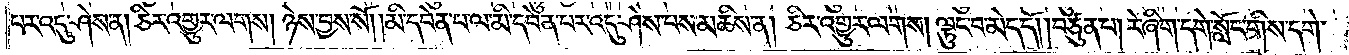པར་འདུ་ཤེས་ན། ཅིར་འགྱུར་ལགས། ཉེས་བྱས་སོ། །མི་དབེན་པ་ལ་མི་དབེན་པར་འདུ་ཤེས་པས་མཆིས་ན། ཅིར་འགྱུར་ལགས། ལྟུང་བ་མེད་དོ། །བཙུན་པ། རེ་ཞིག་དགེ་སློང་གིས་དགེ་
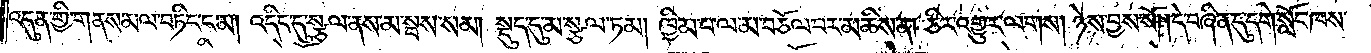འདུན་གྱི་གནས་མལ་བཏིང་ངམ། འདིང་དུ་སྩལ་ནས་མ་སྦས་སམ། སྡུད་དུ་མ་སྩལ་ཏམ། ཁྱིམ་པ་ལ་མ་བཅོལ་བར་མཆིས་ན། ཅིར་འགྱུར་ལགས། ཉེས་བྱས་སོ། །དེ་བཞིན་དུ་དགེ་སློང་ཁས་
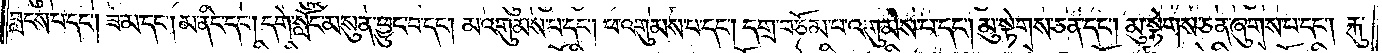བླངས་པ་དང༌། ཟ་མ་དང༌། མ་ནིང་དང༌། དགེ་སློང་མ་སུན་ཕྱུང་བ་དང༌། མ་འགུམས་པ་དང༌། ཕ་འགུམས་པ་དང༌། དགྲ་བཅོམ་པ་འགུམས་པ་དང༌། མུ་སྟེགས་ཅན་དང༌། མུ་སྟེགས་ཅན་ཞུགས་པ་དང༌། རྐུ་
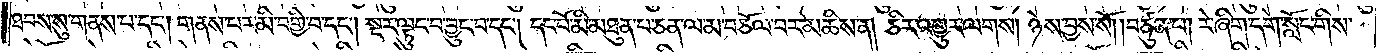ཐབས་སུ་གནས་པ་དང༌། གནས་པར་མི་བགྱི་བ་དང༌། སྔར་ལྟུང་བ་བྱུང་བ་དང༌། དང་པོ་མི་མཐུན་པ་ཅན་ལ་མ་བཅོལ་བར་མཆིས་ན། ཅིར་འགྱུར་ལགས། ཉེས་བྱས་སོ། །བཙུན་པ། རེ་ཞིག་དགེ་སློང་གིས་
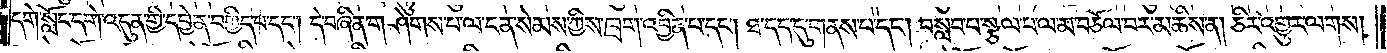དགེ་སློང་དགེ་འདུན་གྱི་དབྱེན་བགྱིད་པ་དང༌། དེ་བཞིན་གཤེགས་པ་ལ་ངན་སེམས་ཀྱིས་ཁྲག་འབྱིན་པ་དང༌། ཐ་དད་དུ་གནས་པ་དང༌། བསླབ་པ་སྩལ་པ་ལ་མ་བཅོལ་བར་མཆིས་ན། ཅིར་འགྱུར་ལགས།
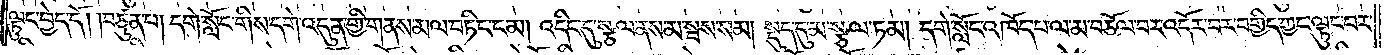ལྟུང་བྱེད་དོ། །བཙུན་པ། དགེ་སློང་གིས་དགེ་འདུན་གྱི་གནས་མལ་བཏིང་ངམ། འདིང་དུ་སྩལ་ནས་མ་སྦས་སམ། སྡུད་དུ་མ་སྩལ་ཏམ། དགེ་སློང་འཁོད་པ་ལ་མ་བཅོལ་བར་འདོར་བར་བགྱིད་ཀྱང་ལྟུང་བར་
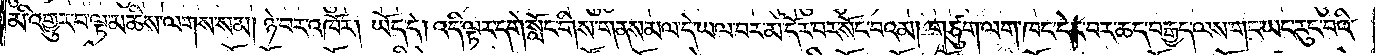མི་འགྱུར་བ་ལྟ་མཆིས་ལགས་སམ། ཉེ་བར་འཁོར། ཡོད་དེ། འདི་ལྟར་དགེ་སློང་གིས་གནས་མལ་དེ་ཡང་བར་མ་དོར་བར་སོང་བའམ། གཙུག་ལག་ཁང་དེར་བར་ཆད་བརྒྱད་ལས་གང་ཡང་རུང་བའི་
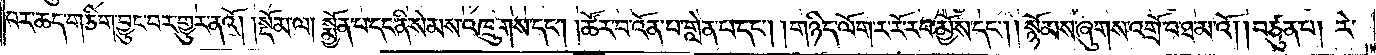བར་ཆད་གཅིག་བྱུང་བར་གྱུར་ནའོ། །སྡོམ་ལ། སྨྱོན་པ་དང་ནི་སེམས་འཁྲུགས་དང༌། །ཚོར་བ་འོན་པ་གླེན་པ་དང༌། །གཉིད་ལོག་ར་རོ་རབ་མྱོས་དང༌། །སྙོམས་ཞུགས་འགྲོ་བ་ཐ་མའོ། །བཙུན་པ། རེ་
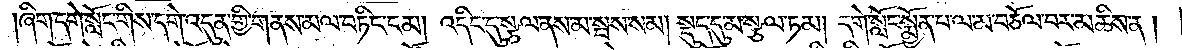།ཞིག་དགེ་སློང་གིས་དགེ་འདུན་གྱི་གནས་མལ་བཏིང་ངམ། འདིང་དུ་སྩལ་ནས་མ་སྦས་སམ། སྡུད་དུ་མ་སྩལ་ཏམ། དགེ་སློང་སྨྱོན་པ་ལ་མ་བཅོལ་བར་མཆིས་ན།
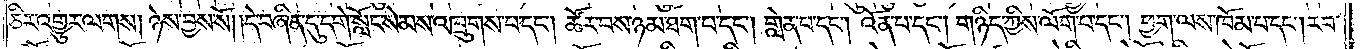ཅིར་འགྱུར་ལགས། ཉེས་བྱས་སོ། །དེ་བཞིན་དུ་དགེ་སློང་སེམས་འཁྲུགས་པ་དང༌། ཚོར་བས་ཉམས་ཐག་པ་དང༌། གླེན་པ་དང༌། འོན་པ་དང༌། གཉིད་ཀྱིས་ལོག་པ་དང༌། ཕྱག་ལས་ཁོམ་པ་དང༌། རབ་
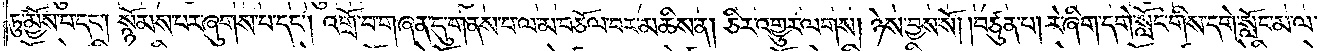ཏུ་མྱོས་པ་དང༌། སྙོམས་པར་ཞུགས་པ་དང༌། འགྲོ་བ་གཞན་དུ་གནས་པ་ལ་མ་བཅོལ་བར་མཆིས་ན། ཅིར་འགྱུར་ལགས། ཉེས་བྱས་སོ། །བཙུན་པ། རེ་ཞིག་དགེ་སློང་གིས་དགེ་སློང་མ་ལ་
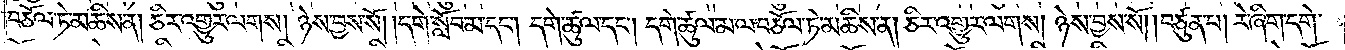བཅོལ་ཏེ་མཆིས་ན། ཅིར་འགྱུར་ལགས། ཉེས་བྱས་སོ། །དགེ་སློབ་མ་དང༌། དགེ་ཚུལ་དང༌། དགེ་ཚུལ་མ་ལ་བཅོལ་ཏེ་མཆིས་ན། ཅིར་འགྱུར་ལགས། ཉེས་བྱས་སོ། །བཙུན་པ། རེ་ཞིག་དགེ་
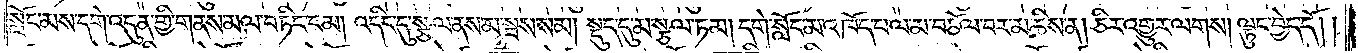སློང་མས་དགེ་འདུན་གྱི་གནས་མལ་བཏིང་ངམ། འདིང་དུ་སྩལ་ནས་མ་སྦས་སམ། སྡུད་དུ་མ་སྩལ་ཏམ། དགེ་སློང་མ་འཁོད་པ་ལ་མ་བཅོལ་བར་མཆིས་ན། ཅིར་འགྱུར་ལགས། ལྟུང་བྱེད་དོ། །
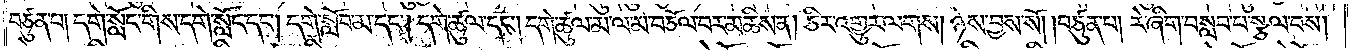བཙུན་པ། དགེ་སློང་གིས་དགེ་སློང་དང༌། དགེ་སློབ་དང༌། དགེ་ཚུལ་དང༌། དགེ་ཚུལ་མ་ལ་མ་བཅོལ་བར་མཆིས་ན། ཅིར་འགྱུར་ལགས། ཉེས་བྱས་སོ། །བཙུན་པ། རེ་ཞིག་བསླབ་པ་སྩལ་བས།
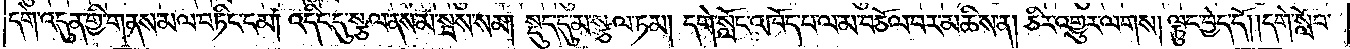དགེ་འདུན་གྱི་གནས་མལ་བཏིང་ངམ། འདིང་དུ་སྩལ་ནས་མ་སྦས་སམ། སྡུད་དུ་མ་སྩལ་ཏམ། དགེ་སློང་འཁོད་པ་ལ་མ་བཅོལ་བར་མཆིས་ན། ཅིར་འགྱུར་ལགས། ལྟུང་བྱེད་དོ། །དགེ་སློབ་
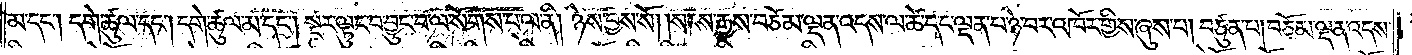མ་དང༌། དགེ་ཚུལ་དང༌། དགེ་ཚུལ་མ་དང༌། སྔར་ལྟུང་བ་བྱུང་བ་ལ་སོགས་པ་ལ་ནི། ཉེས་བྱས་སོ། །སངས་རྒྱས་བཅོམ་ལྡན་འདས་ལ་ཚེ་དང་ལྡན་པ་ཉེ་བར་འཁོར་གྱིས་ཞུས་པ། བཙུན་པ། བཅོམ་ལྡན་འདས་
